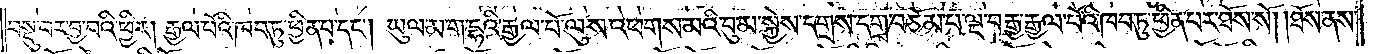བསྡུ་བར་བྱ་བའི་ཕྱིར། རྒྱལ་པོའི་ཁབ་ཏུ་ཕྱིན་པ་དང༌། ཡུལ་མ་ག་དྷའི་རྒྱལ་པོ་ལུས་འཕགས་མའི་བུ་མ་སྐྱེས་དགྲས་དགྲ་བཅོམ་པ་ལྔ་བརྒྱ་རྒྱལ་པོའི་ཁབ་ཏུ་ཕྱིན་པར་ཐོས་སོ། །ཐོས་ནས་
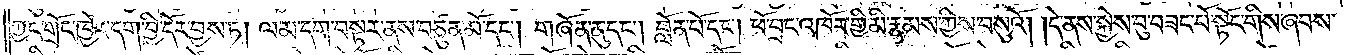ཀྱང་གྲོང་ཁྱེར་དག་བྱི་དོར་བྱས་ཏེ། ལམ་དག་བསྟར་ནས་བཙུན་མོ་དང༌། གཞོན་ནུ་དང༌། བློན་པོ་དང༌། ཕོ་བྲང་འཁོར་གྱི་མི་རྣམས་ཀྱིས་བསུའོ། །དེ་ནས་སྐྱེས་བུ་བཟང་པོ་སྟོང་གིས་ཞབས་
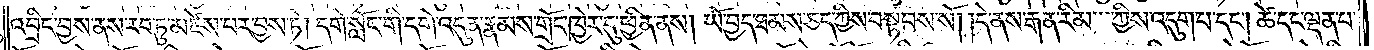འབྲིང་བྱས་ནས་རབ་ཏུ་མཛེས་པར་བྱས་ཏེ། དགེ་སློང་གི་དགེ་འདུན་རྣམས་གྲོང་ཁྱེར་དུ་ཕྱིན་ནས། ཡོ་བྱད་ཐམས་ཅད་ཀྱིས་བསྟབས་སོ། །དེ་ནས་རྒན་རིམ་ཀྱིས་འདུག་པ་དང༌། ཚེ་དང་ལྡན་པ་
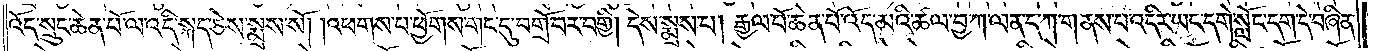འོད་སྲུང་ཆེན་པོ་ལ་འདི་སྐད་ཅེས་སྨྲས་སོ། །འཕགས་པ་ཕྱོགས་གང་དུ་བགྲོ་བར་བགྱི། དེས་སྨྲས་པ། རྒྱལ་པོ་ཆེན་པོ་འོད་མའི་ཚལ་བྱ་ཀ་ལན་ད་ཀ་གནས་པ་འདིར་ཡང་དགེ་སློང་དག་དེ་བཞིན་
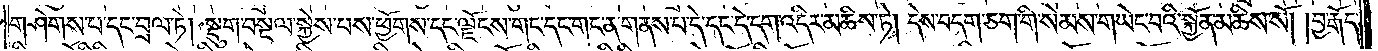གཤེགས་པ་དང་བྲལ་ཏེ། སྡུག་བསྔལ་སྐྱེས་པས་ཕྱོགས་དང་ལྗོངས་གང་དང་གང་ན་གནས་པ་དེ་དང་དེ་དག་འདིར་མཆིས་ཏེ། དེས་བདག་ཅག་གི་སེམས་གཡེང་བའི་སྐྱོན་མཆིས་སོ། །བྱ་རྒོད་
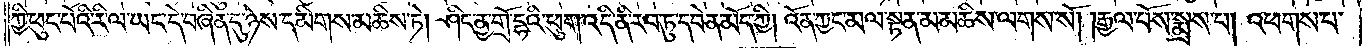ཀྱི་ཕུང་པོའི་རི་ལ་ཡང་དེ་བཞིན་དུ་ཉེས་དམིགས་མཆིས་ཏེ། ཤིང་ནྱ་གྲོ་དྷའི་ཕུག་འདི་ནི་རབ་ཏུ་དབེན་མོད་ཀྱི། འོན་ཀྱང་མལ་སྟན་མ་མཆིས་ལགས་སོ། །རྒྱལ་པོས་སྨྲས་པ། འཕགས་པ་
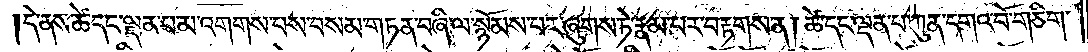དེ་ནས་ཚེ་དང་ལྡན་པ་མ་འགགས་པས་བསམ་གཏན་བཞི་ལ་སྙོམས་པར་ཞུགས་ཏེ་རྣམ་པར་བརྟགས་ན། ཚེ་དང་ལྡན་པ་ཀུན་དགའ་བོ་གཅིག་
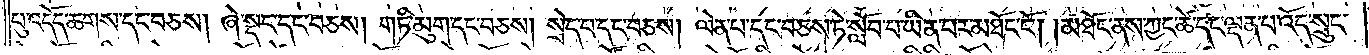པུ་འདོད་ཆགས་དང་བཅས། ཞེ་སྡང་དང་བཅས། གཏི་མུག་དང་བཅས། སྲེད་པ་དང་བཅས། ལེན་པ་དང་བཅས་ཏེ་སློབ་པ་ཡིན་པར་མཐོང་ངོ༌། །མཐོང་ནས་ཀྱང་ཚེ་དང་ལྡན་པ་འོད་སྲུང་
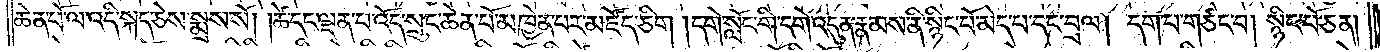ཆེན་པོ་ལ་འདི་སྐད་ཅེས་སྨྲས་སོ། །ཚེ་དང་ལྡན་པ་འོད་སྲུང་ཆེན་པོ་མཁྱེན་པར་མཛོད་ཅིག །དགེ་སློང་གི་དགེ་འདུན་རྣམས་ནི་སྙིང་པོ་མེད་པ་དང་བྲལ། དག་པ་གཙང་བ། སྙིང་པོ་ཅན།
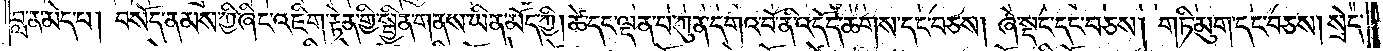བླ་ན་མེད་པ། བསོད་ནམས་ཀྱི་ཞིང་འཇིག་རྟེན་གྱི་སྦྱིན་གནས་ཡིན་མོད་ཀྱི། ཚེ་དང་ལྡན་པ་ཀུན་དགའ་བོ་ནི་འདོད་ཆགས་དང་བཅས། ཞེ་སྡང་དང་བཅས། གཏི་མུག་དང་བཅས། སྲེད་
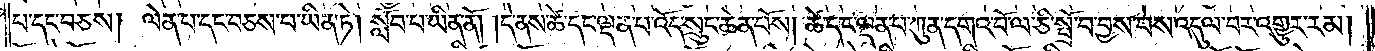པ་དང་བཅས། ལེན་པ་དང་བཅས་པ་ཡིན་ཏེ། སློབ་པ་ཡིན་ནོ། །དེ་ནས་ཚེ་དང་ལྡན་པ་འོད་སྲུང་ཆེན་པོས། ཚེ་དང་ལྡན་པ་ཀུན་དགའ་བོ་ལ་ཅི་སྤྲོ་བ་བྱས་པས་འདུལ་བར་འགྱུར་རམ།
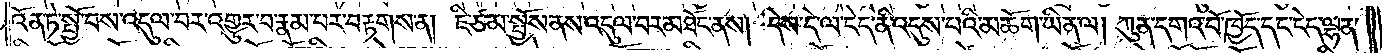འོན་ཏེ་སྤྱོ་བས་འདུལ་བར་འགྱུར་བ་རྣམ་པར་བརྟགས་ན། ཇི་ཙམ་སྤྱོས་ནས་འདུལ་བར་མཐོང་ནས། དེས་དེ་ལ་ངེད་ནི་འདུས་པའི་མཆོག་ཡིན་ལ། ཀུན་དགའ་བོ་ཁྱོད་དང་ངེད་ལྷན་
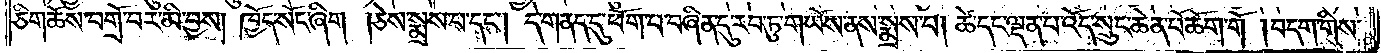ཅིག་ཆོས་བགྲོ་བར་མི་བྱས། ཁྱོད་སོང་ཞིག །ཅེས་སྨྲས་པ་དང༌། དེ་གནད་དུ་ཕོག་པ་བཞིན་དུ་རབ་ཏུ་གཡོས་ནས་སྨྲས་པ། ཚེ་དང་ལྡན་པ་འོད་སྲུང་ཆེན་པོ་ཆོག་གོ །བདག་གིས་
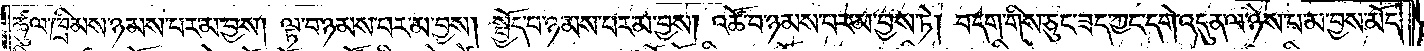ཚུལ་ཁྲིམས་ཉམས་པར་མ་བྱས། ལྟ་བ་ཉམས་པར་མ་བྱས། སྤྱོད་པ་ཉམས་པར་མ་བྱས། འཚོ་བ་ཉམས་པར་མ་བྱས་ཏེ། བདག་གིས་ཅུང་ཟད་ཀྱང་དགེ་འདུན་ལ་ཉེས་པ་མ་བྱས་མོད་
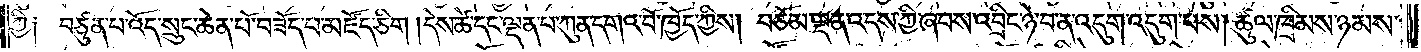ཀྱི༑ བཙུན་པ་འོད་སྲུང་ཆེན་པོ་བཟོད་པ་མཛོད་ཅིག །དེས་ཚེ་དང་ལྡན་པ་ཀུན་དགའ་བོ་ཁྱོད་ཀྱིས། བཅོམ་ལྡན་འདས་ཀྱི་ཞབས་འབྲིང་ཉེ་བ་ན་འདུག་འདུག་པས། ཚུལ་ཁྲིམས་ཉམས་
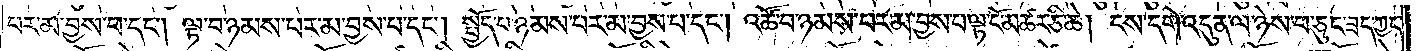པར་མ་བྱས་པ་དང༌། ལྟ་བ་ཉམས་པར་མ་བྱས་པ་དང༌། སྤྱོད་པ་ཉམས་པར་མ་བྱས་པ་དང༌། འཚོ་བ་ཉམས་པར་མ་བྱས་བལྟ་ངོ་མཚར་ཅི་ཆེ། ངས་དགེ་འདུན་ལ་ཉེས་པ་ཅུང་ཟད་ཀྱང་
